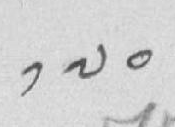༡༧༠
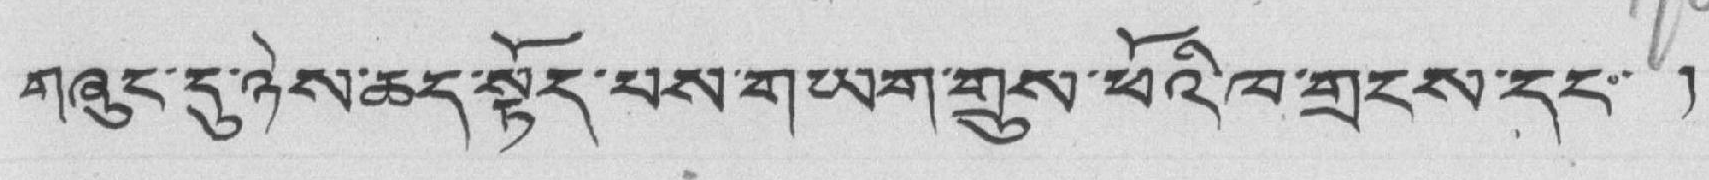གཞུང་དུ་ཉེས་ཆད་སྟོད་པས་གཡག་གྲུས་ཕོའི་ཁ་གྲངས་དང་ །
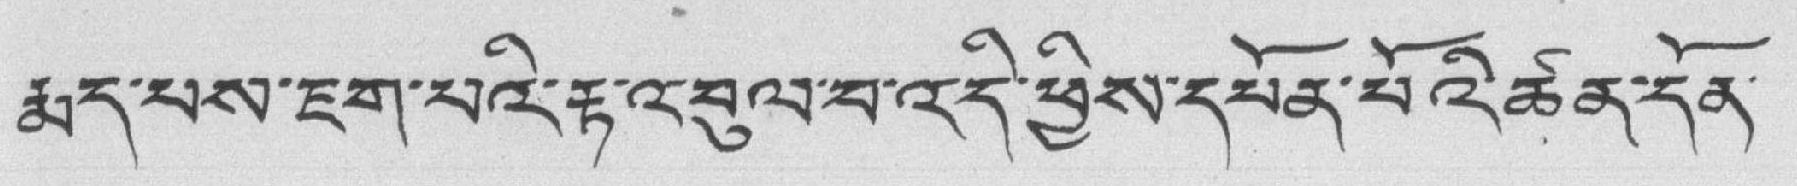རྨད་པས་ཇག་པའི་རྟ་འབུལ་བ་འདི་ཕྱིས་དཔོན་པོའི་ཚན་དོན་
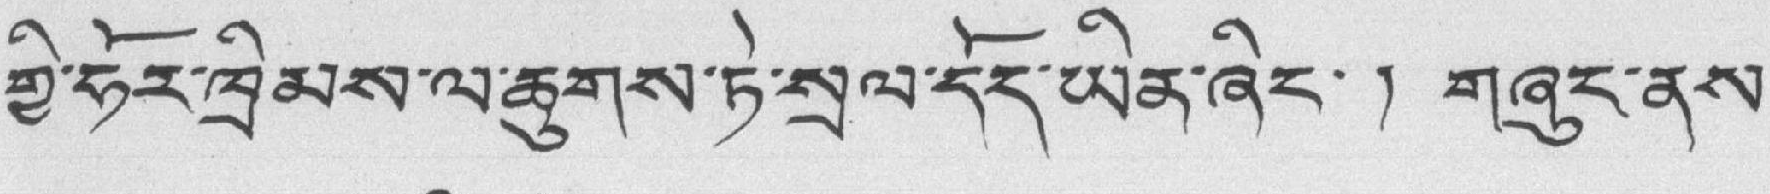གྱི་ཧོར་ཁྲིམས་ལ་ཆུགས་ཏེ་སྲལ་དོད་ཡིན་ཞིང་ ། གཞུང་ནས་
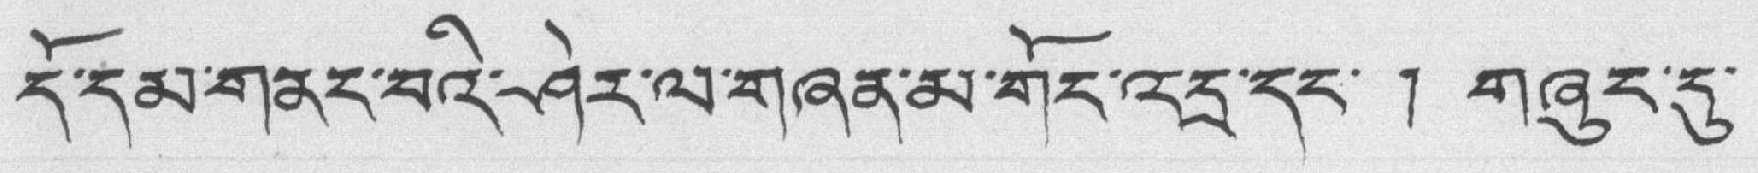དོ་དམ་གནང་བའི་ཤེར་ལ་གཞན་མ་གོང་འདྲ་དང་ ། གཞུང་དུ་
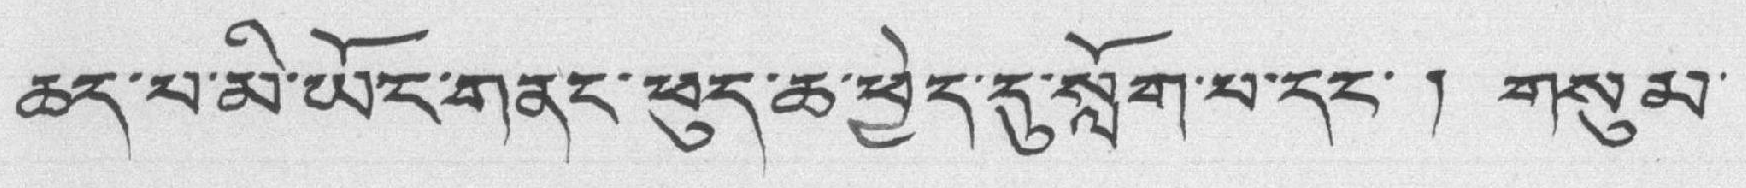ཆད་པ་མི་ཡོང་གནང་ཕུད་ཆ་ཕྱེད་དུ་སློག་པ་དང་ ། གསུམ་
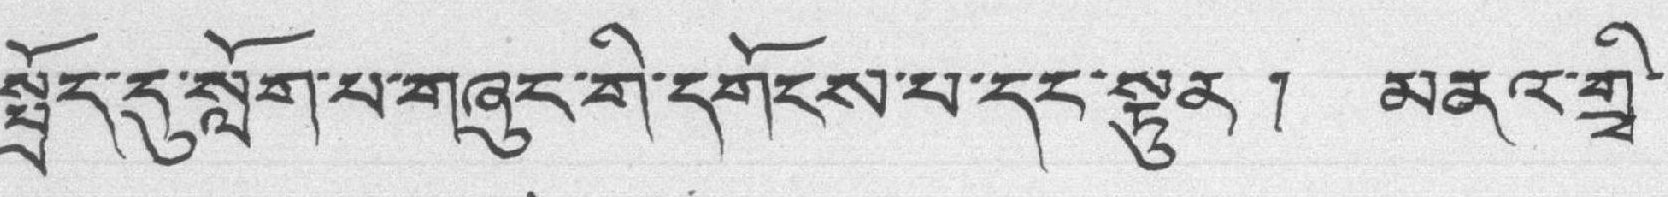སྤྲོད་དུ་སློག་པ་གཞུང་གི་དགོངས་པ་དང་སྟུན ། མནའ་གྲྭི་
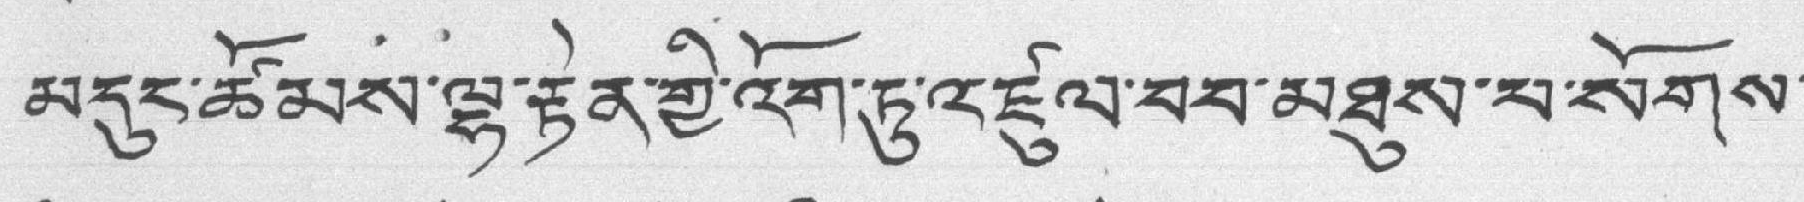མདུང་ཚོམས་ལྷ་རྟེན་གྱི་འོག་ཏུ་འཛུལ་བབ་མཐུས་པ་སོགས་
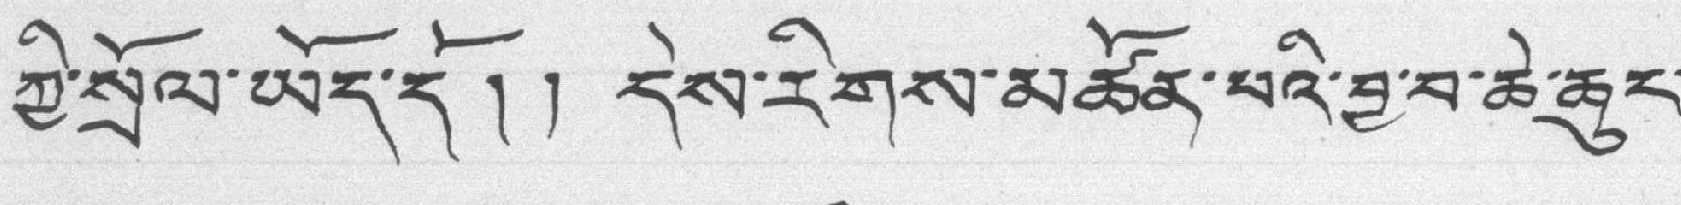ཀྱི་སྲོལ་ཡོད་དོ།། དེས་རིགས་མཚོན་པའི་བྱ་བ་ཆེ་ཆུང་
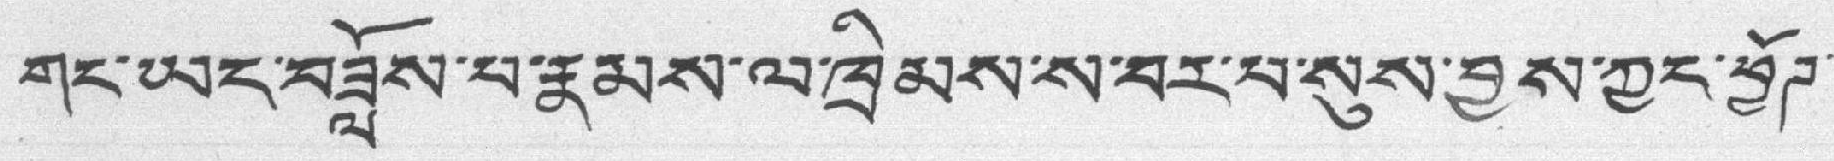གང་ཡང་བཟློས་པ་རྣམས་ལ་ཁྲིམས་ས་བར་པ་སུས་བྱས་ཀྱང་ཕྱོཊ་
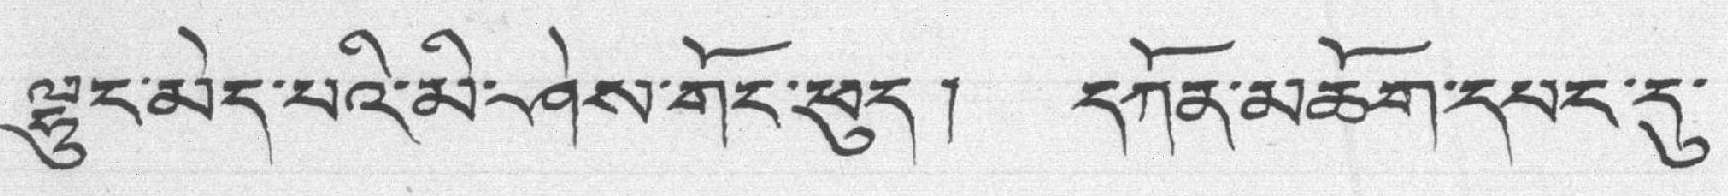ལྷུང་མེད་པའི་མི་ཤེས་གོང་ཕུད། དཀོན་མཆོག་དཔང་དུ་
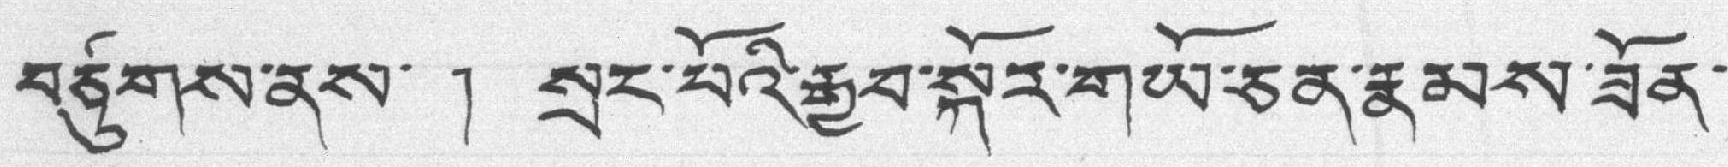བཙུགས་ནས་ ། སྲང་པོའི་རྒྱབ་སྐོར་གཡོ་ཅན་རྣམས་ཟོན་
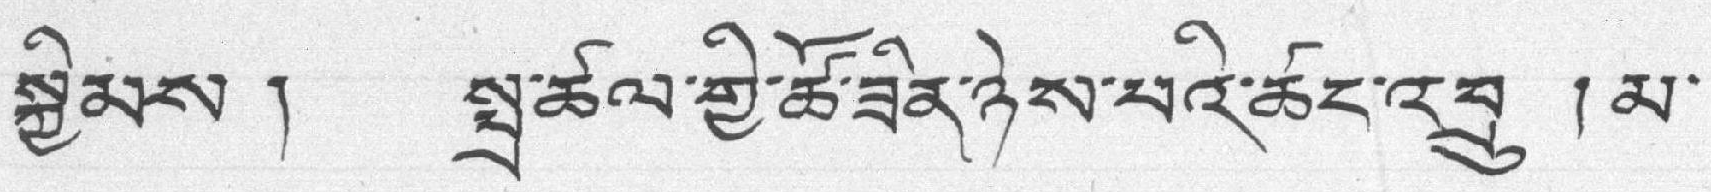སྐྱིམས ། སྤྲ་ཚལ་གྱི་ཚོ་ཟིན་ཉེས་པའི་ཚང་འབྲུ ། མ་
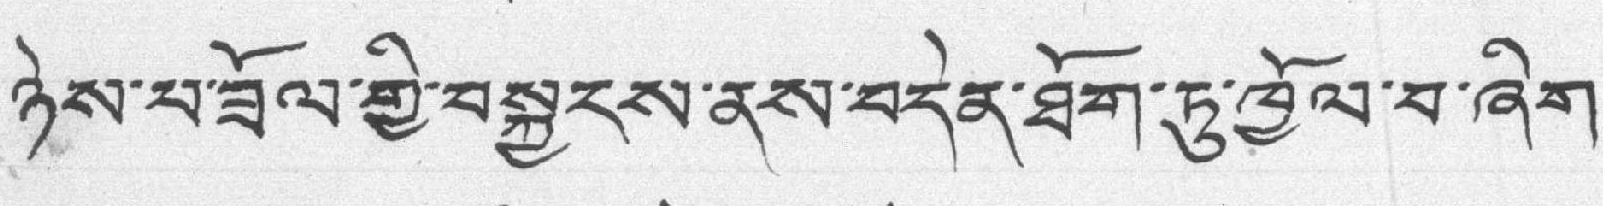ཉེས་པ་ཟོལ་གྱི་བསྐྱངས་ནས་བདེན་ཐོག་ཏུ་ཁྱོལ་བ་ཞིག་
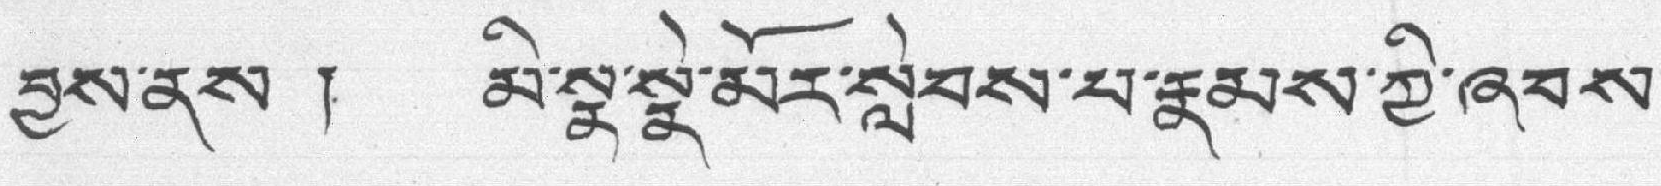བྱས་ནས ། མི་སྣ་སྣེ་མོར་སླེབས་པ་རྣམས་ཀྱི་ཞབས་
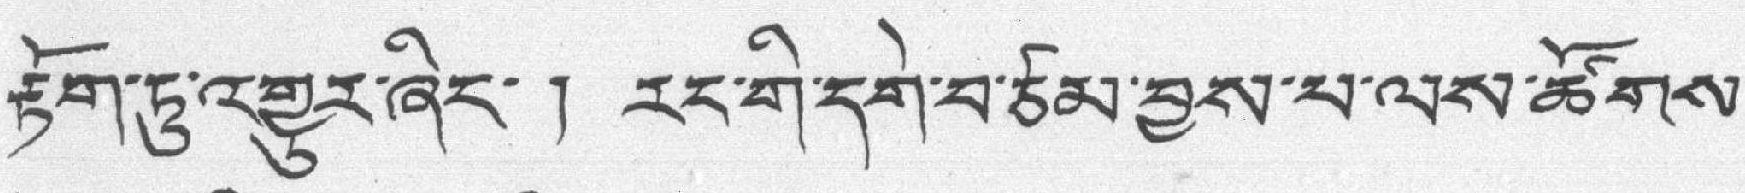རྟོག་ཏུ་འགྱུར་ཞིང་ ། རང་གི་དགེ་བ་ཙམ་བྱས་པ་ལས་ཚོགས་
